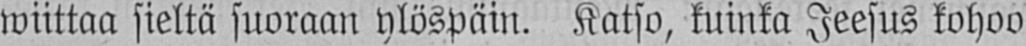wiittaa sieltä suoraan ylöspäin. Katso, kuinka Jeesus kohoo
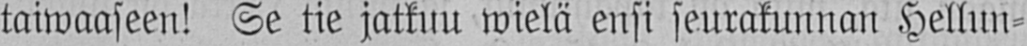taiwaaseen! Se tie jatkuu wielä ensi seurakunnan Hellun-
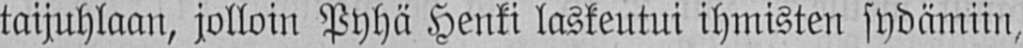taijuhlaan, jolloin Pyhä Henki laskeutui ihmisten sydämiin,
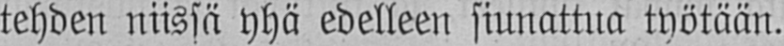tehden niissä yhä edelleen siunattua työtään.
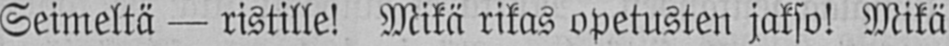Seimeltä — ristille! Mikä rikas opetusten jakso! Mikä
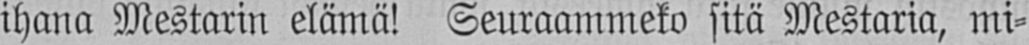ihana Mestarin elämä! Seuraammeko sitä Mestaria, mi-
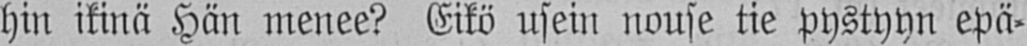hin ikinä Hän menee? Eikö usein nouse tie pystyyn epä-
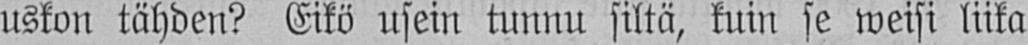uskon tähden? Eikö usein tunnu siltä, kuin se weisi liika
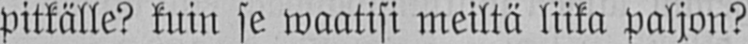pitkälle? kuin se waatisi meiltä liika paljon?
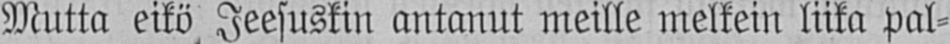Mutta eikö Jeesuskin antanut meille melkein liika pal-
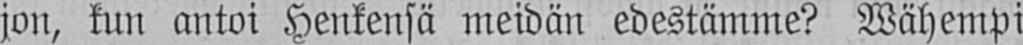jon, kun antoi Henkensä meidän edestämme? Wähempi
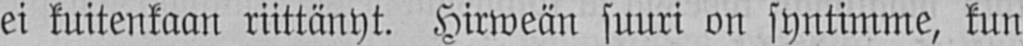ei kuitenkaan riittänyt. Hirweän suuri on syntimme, kun
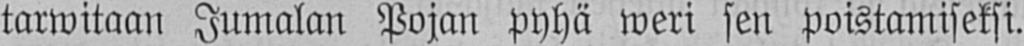tarwitaan Jumalan Pojan pyhä weri sen poistamiseksi.
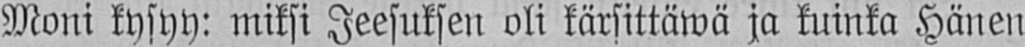Moni kysyy: miksi Jeesuksen oli kärsittäwä ja kuinka Hänen
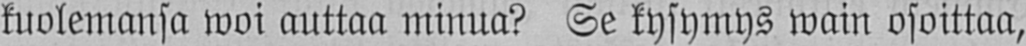kuolemansa woi auttaa minua? Se kysymys wain osoittaa,
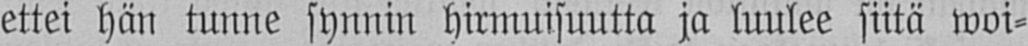ettei hän tunne synnin hirmuisuutta ja luulee siitä woi-
